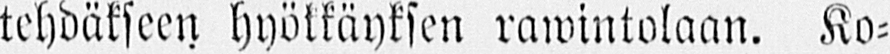tehdäkseen hyökkäyksen rawintolaan. Ko-
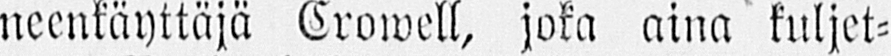neenkäyttäjä Crowell, joka aina kuljet-
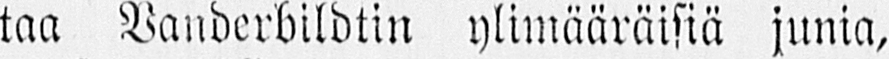taa Vanderbildtin ylimääräisiä junia,
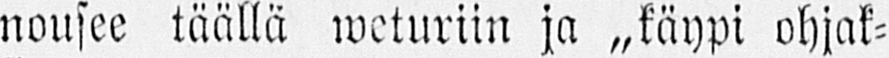nousee täällä weturiin ja „käypi ohjak-
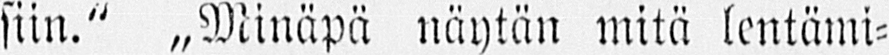siin." „Minäpä näytän mitä lentämi-
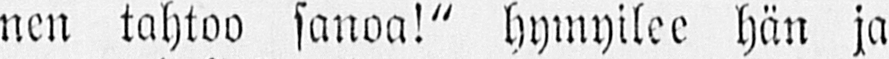nen tahtoo sanoa!" hymyilee hän ja
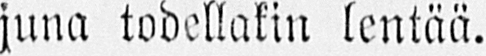juna todellakin lentää.
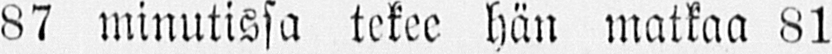87 minutissa tekee hän matkaa 81
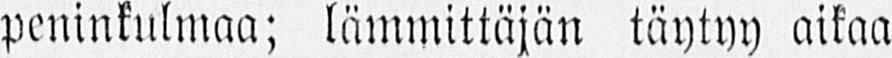peninkulmaa; lämmittäjän täytyy aikaa
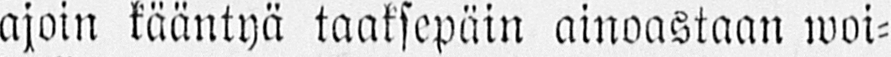ajoin kääntyä taaksepäin ainoastaan woi-
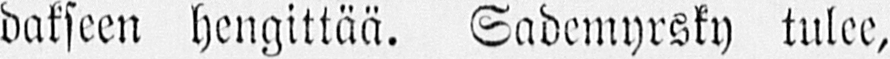dakseen hengittää. Sademyrsky tulee,
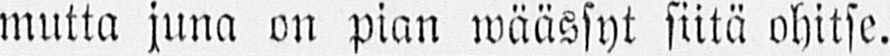mutta juna on pian wäässyt siitä ohitse.
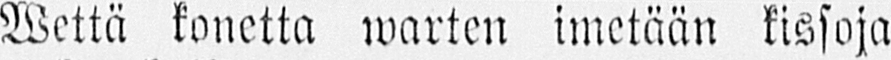Wettä konetta warten imetään kissoja
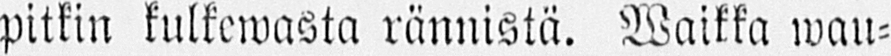pitkin kulkewasta rännistä. Waikka wau-
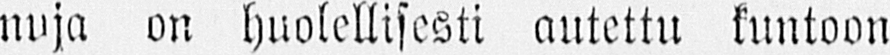nuja on huolellisesti autettu kuntoon
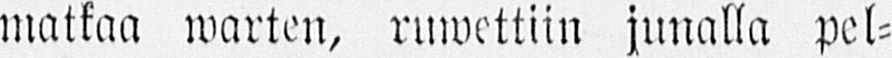matkaa warten, ruwettiin junalla pel-
